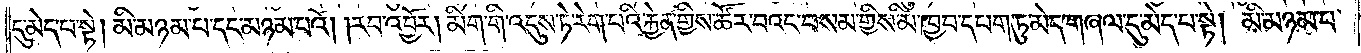དུ་མེད་པ་སྟེ། མི་མཉམ་པ་དང་མཉམ་པའོ། །རབ་འབྱོར། མིག་གི་འདུས་ཏེ་རེག་པའི་རྐྱེན་གྱིས་ཚོར་བའང་བསམ་གྱིས་མི་ཁྱབ་དཔག་ཏུ་མེད་གཞལ་དུ་མེད་པ་སྟེ། མི་མཉམ་པ་
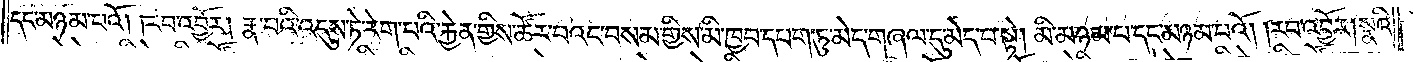དང་མཉམ་པའོ། །རབ་འབྱོར། རྣ་བའི་འདུས་ཏེ་རེག་པའི་རྐྱེན་གྱིས་ཚོར་བའང་བསམ་གྱིས་མི་ཁྱབ་དཔག་ཏུ་མེད་གཞལ་དུ་མེད་པ་སྟེ། མི་མཉམ་པ་དང་མཉམ་པའོ། །རབ་འབྱོར། སྣའི་
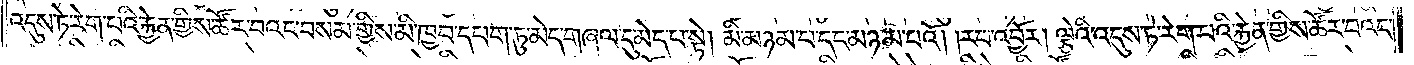འདུས་ཏེ་རེག་པའི་རྐྱེན་གྱིས་ཚོར་བའང་བསམ་གྱིས་མི་ཁྱབ་དཔག་ཏུ་མེད་གཞལ་དུ་མེད་པ་སྟེ། མི་མཉམ་པ་དང་མཉམ་པའོ། །རབ་འབྱོར། ལྕེའི་འདུས་ཏེ་རེག་པའི་རྐྱེན་གྱིས་ཚོར་བའང་
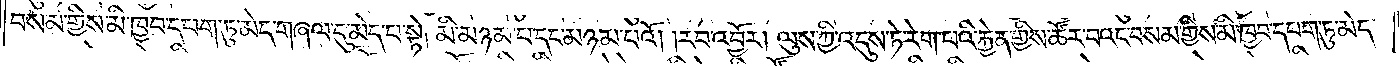བསམ་གྱིས་མི་ཁྱབ་དཔག་ཏུ་མེད་གཞལ་དུ་མེད་པ་སྟེ། མི་མཉམ་པ་དང་མཉམ་པའོ། །རབ་འབྱོར། ལུས་ཀྱི་འདུས་ཏེ་རེག་པའི་རྐྱེན་གྱིས་ཚོར་བའང་བསམ་གྱིས་མི་ཁྱབ་དཔག་ཏུ་མེད་
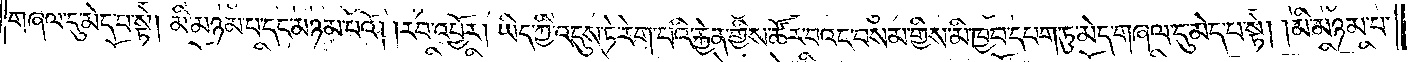གཞལ་དུ་མེད་པ་སྟེ། མི་མཉམ་པ་དང་མཉམ་པའོ། །རབ་འབྱོར། ཡིད་ཀྱི་འདུས་ཏེ་རེག་པའི་རྐྱེན་གྱིས་ཚོར་བའང་བསམ་གྱིས་མི་ཁྱབ་དཔག་ཏུ་མེད་གཞལ་དུ་མེད་པ་སྟེ། མི་མཉམ་པ་
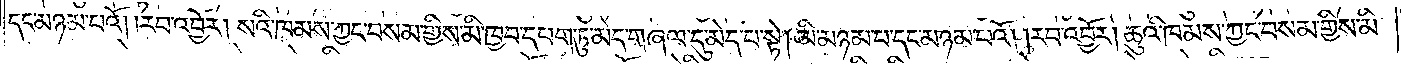དང་མཉམ་པའོ། །རབ་འབྱོར། སའི་ཁམས་ཀྱང་བསམ་གྱིས་མི་ཁྱབ་དཔག་ཏུ་མེད་གཞལ་དུ་མེད་པ་སྟེ། མི་མཉམ་པ་དང་མཉམ་པའོ། །རབ་འབྱོར། ཆུའི་ཁམས་ཀྱང་བསམ་གྱིས་མི་
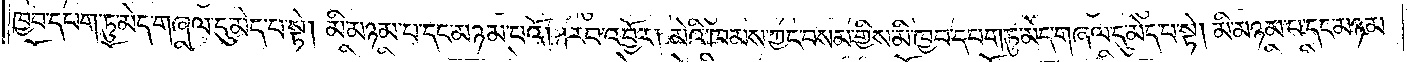ཁྱབ་དཔག་ཏུ་མེད་གཞལ་དུ་མེད་པ་སྟེ། མི་མཉམ་པ་དང་མཉམ་པའོ། །རབ་འབྱོར། མེའི་ཁམས་ཀྱང་བསམ་གྱིས་མི་ཁྱབ་དཔག་ཏུ་མེད་གཞལ་དུ་མེད་པ་སྟེ། མི་མཉམ་པ་དང་མཉམ་
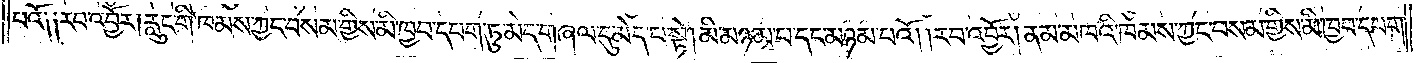པའོ༑ ༑རབ་འབྱོར། རླུང་གི་ཁམས་ཀྱང་བསམ་གྱིས་མི་ཁྱབ་དཔག་ཏུ་མེད་གཞལ་དུ་མེད་པ་སྟེ། མི་མཉམ་པ་དང་མཉམ་པའོ། །རབ་འབྱོར། ནམ་མཁའི་ཁམས་ཀྱང་བསམ་གྱིས་མི་ཁྱབ་དཔག་
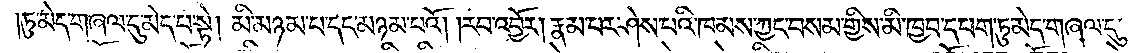ཏུ་མེད་གཞལ་དུ་མེད་པ་སྟེ། མི་མཉམ་པ་དང་མཉམ་པའོ། །རབ་འབྱོར། རྣམ་པར་ཤེས་པའི་ཁམས་ཀྱང་བསམ་གྱིས་མི་ཁྱབ་དཔག་ཏུ་མེད་གཞལ་དུ་
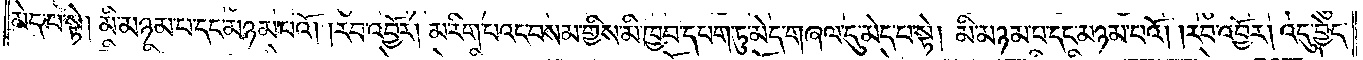མེད་པ་སྟེ། མི་མཉམ་པ་དང་མཉམ་པའོ། །རབ་འབྱོར། མ་རིག་པའང་བསམ་གྱིས་མི་ཁྱབ་དཔག་ཏུ་མེད་གཞལ་དུ་མེད་པ་སྟེ། མི་མཉམ་པ་དང་མཉམ་པའོ། །རབ་འབྱོར། འདུ་བྱེད་
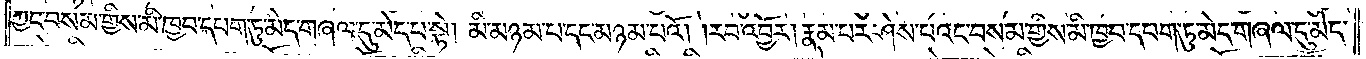ཀྱང་བསམ་གྱིས་མི་ཁྱབ་དཔག་ཏུ་མེད་གཞལ་དུ་མེད་པ་སྟེ། མི་མཉམ་པ་དང་མཉམ་པའོ། །རབ་འབྱོར། རྣམ་པར་ཤེས་པའང་བསམ་གྱིས་མི་ཁྱབ་དཔག་ཏུ་མེད་གཞལ་དུ་མེད་
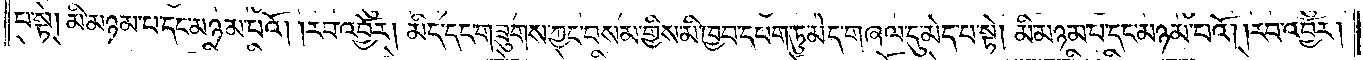པ་སྟེ། མི་མཉམ་པ་དང་མཉམ་པའོ། །རབ་འབྱོར། མིང་དང་གཟུགས་ཀྱང་བསམ་གྱིས་མི་ཁྱབ་དཔག་ཏུ་མེད་གཞལ་དུ་མེད་པ་སྟེ། མི་མཉམ་པ་དང་མཉམ་པའོ། །རབ་འབྱོར།
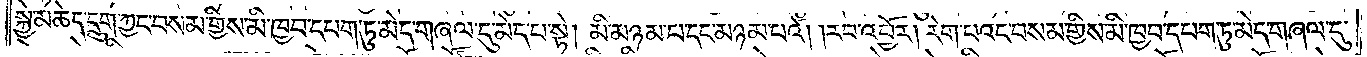སྐྱེ་མཆེད་དྲུག་ཀྱང་བསམ་གྱིས་མི་ཁྱབ་དཔག་ཏུ་མེད་གཞལ་དུ་མེད་པ་སྟེ། མི་མཉམ་པ་དང་མཉམ་པའོ། །རབ་འབྱོར། རེག་པའང་བསམ་གྱིས་མི་ཁྱབ་དཔག་ཏུ་མེད་གཞལ་དུ་
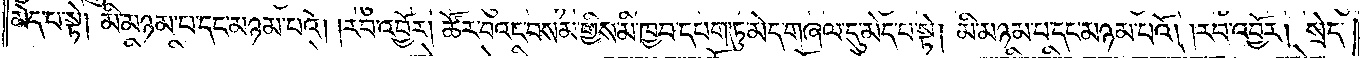མེད་པ་སྟེ། མི་མཉམ་པ་དང་མཉམ་པའོ། །རབ་འབྱོར། ཚོར་བའང་བསམ་གྱིས་མི་ཁྱབ་དཔག་ཏུ་མེད་གཞལ་དུ་མེད་པ་སྟེ། མི་མཉམ་པ་དང་མཉམ་པའོ། །རབ་འབྱོར། སྲེད་
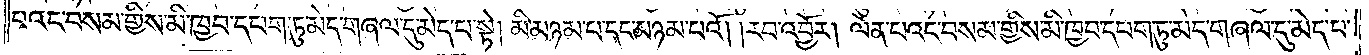པའང་བསམ་གྱིས་མི་ཁྱབ་དཔག་ཏུ་མེད་གཞལ་དུ་མེད་པ་སྟེ། མི་མཉམ་པ་དང་མཉམ་པའོ། །རབ་འབྱོར། ལེན་པའང་བསམ་གྱིས་མི་ཁྱབ་དཔག་ཏུ་མེད་གཞལ་དུ་མེད་པ་
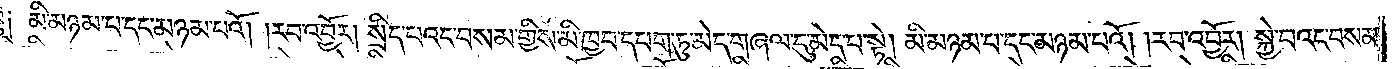སྟེ༑ མི་མཉམ་པ་དང་མཉམ་པའོ། །རབ་འབྱོར། སྲིད་པའང་བསམ་གྱིས་མི་ཁྱབ་དཔག་ཏུ་མེད་གཞལ་དུ་མེད་པ་སྟེ། མི་མཉམ་པ་དང་མཉམ་པའོ། །རབ་འབྱོར། སྐྱེ་བའང་བསམ་
